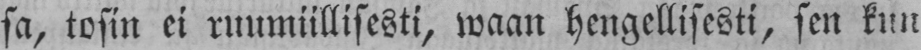sa, tosin ei ruumiillisesti, waan hengellisesti, sen kun
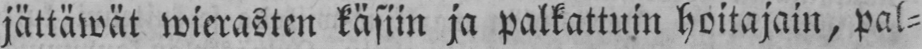jättäwät wierasten käsiin ja palkattuni hoitajain, pal-
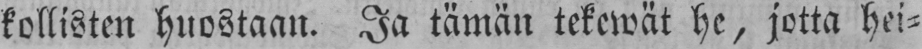kollisten huostaan. Ja tämän tekewät he, jotta hei-
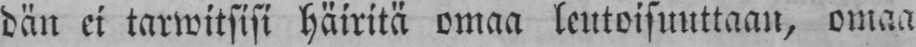dän ei tarwitsisi häiritä omaa leutoisuuttaan, omaa
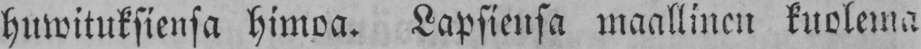huwituksiensa himoa. Lapsiensa maallinen kuolema
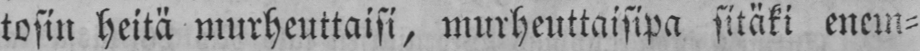tosin heitä murheuttaisi, murheuttaisipa sitäki enem-
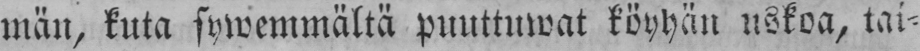män, kuta sywemmältä puuttuwat köyhän uskoa, tai-
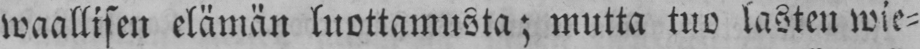waallisen elämän luottamusta; mutta tuo lasten wie-
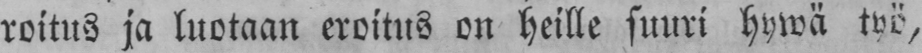roitus ja luotaan eroitus on heille suuri hywä työ,
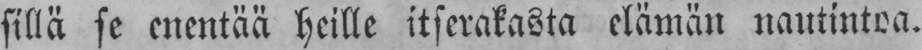sillä se enentää heille itserakasta elämän nautintoa.
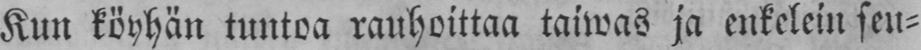Kun köyhän tuntoa rauhoittaa taiwas ja enkelein seu-
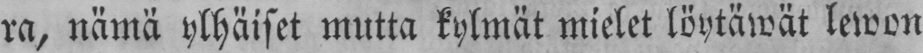ra, nämä ylhäiset mutta kylmät mielet löytäwät lewon
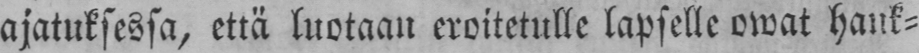ajatuksessa, etkä luotaan eroitetulle lapselle owat hank-
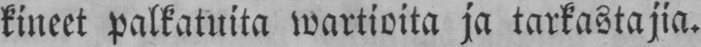kineet palkatulta wartioita ja tarkastajia.
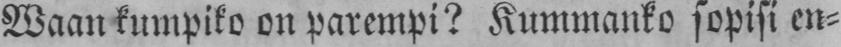Waan kumpiko on parempi? Kummanko sopisi en-
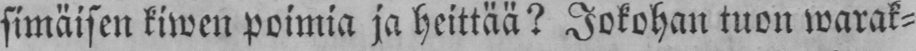simäisen kiwen poimia ja heittää? Jokohan tuon warak-
